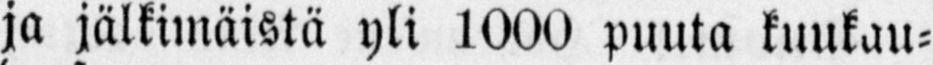ja jälkimäistä yli 1000 puuta kuukau-
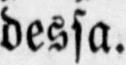dessa.
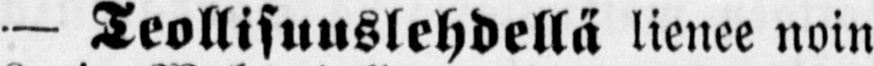— Teollisuuslehdellä lienee noin
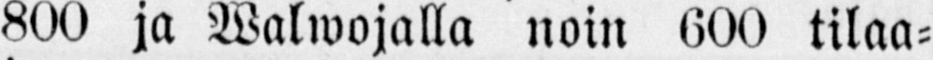800 ja Walwojalla noin 600 tilaa-
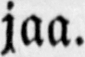jaa.
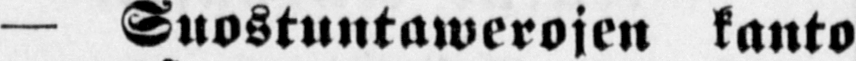— Suostuntawerojen kanto
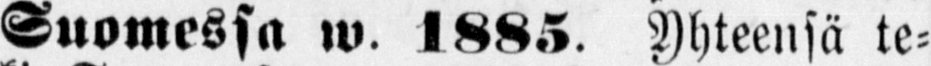Suomessa w. 1885. Yhteensä te-
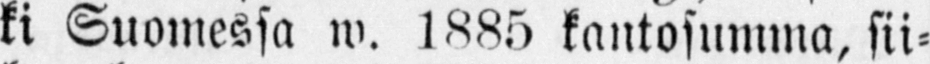ki Suomessa w. 1885 kantosumma, sii-
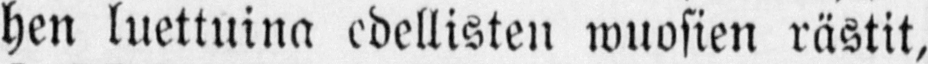hen luettuina edellisten wuosien rästit,
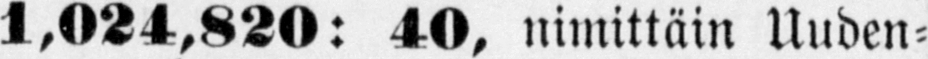1,024,820: 40, nimittäin Uuden-
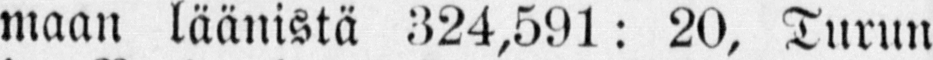maan läänistä 324,591: 20, Turun
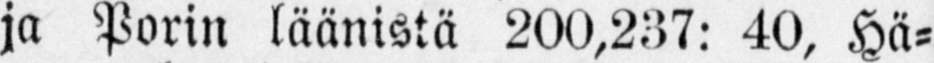ja Porin läänistä 200,237: 40, Hä-
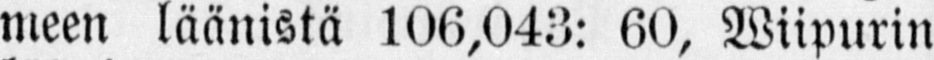meen läänistä 106,043: 60, Wiipurin
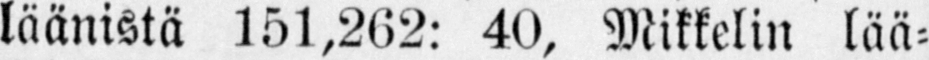läänistä 151,262: 40, Mikkelin lää-
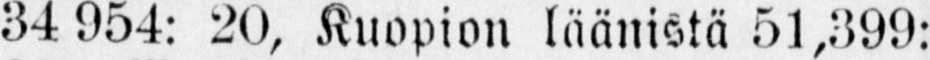34 954: 20, Kuopion läänistä 51,399:
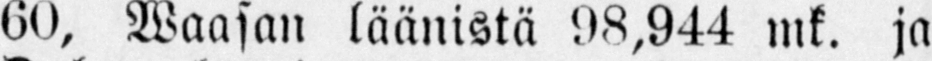60, Waasan läänistä 98,944 mk. ja
